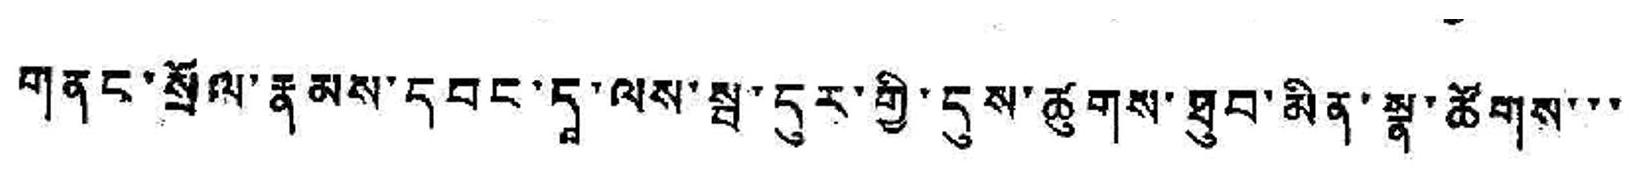གནང་སྲོལ་རྣམས་དབང་དཱ་ལས་སྦ་དུར་གྱི་དུས་ཚུགས་ཐུབ་མིན་སྣ་ཚོགས་་་
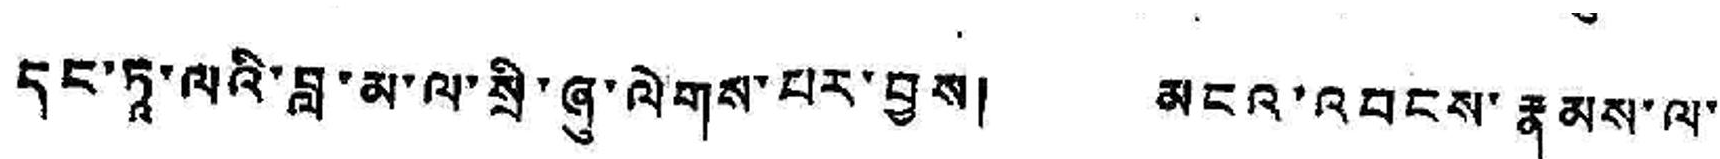དང་ཏཱ་ལའི་བླ་མ་ལ་སྲི་ཞུ་ལེགས་པར་བྱས། མངའ་འབངས་རྣམས་ལ་
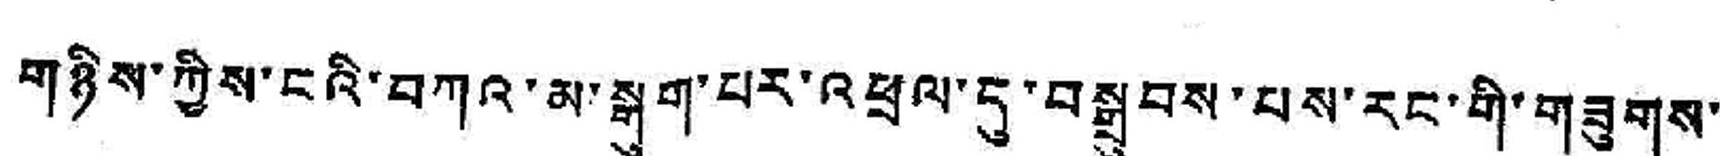གཉིས་ཀྱིས་ངའི་བཀའ་མ་སྒུག་པར་འཕྲལ་དུ་བསྒྲུབས་པས་རང་གི་གཟུགས་
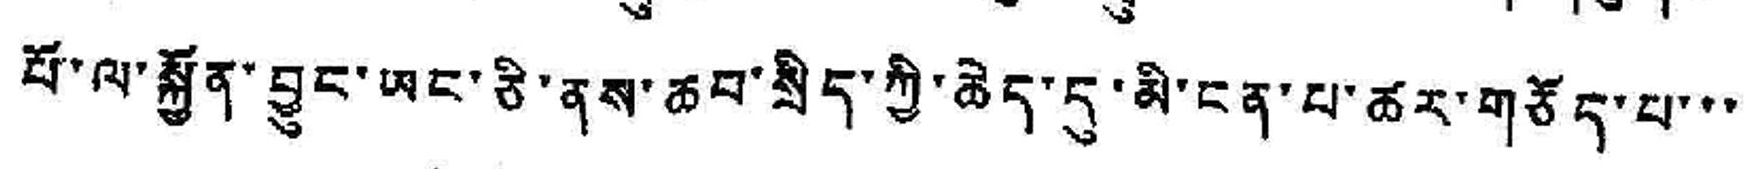པོ་ལ་སྐྱོན་བྱུང་ཡང་ཅི་ནས་ཆབ་སྲིད་ཀྱི་ཆེད་དུ་མི་ངན་པ་ཚར་གཅོད་པ་་་
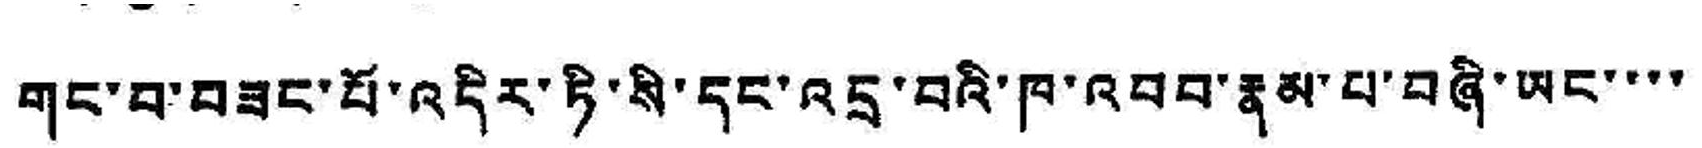གང་བ་བཟང་པོ་འདིར་ཏི་སི་དང་འདྲ་བའི་ཁ་འབབ་རྣམ་པ་བཞི་ཡང་་་་
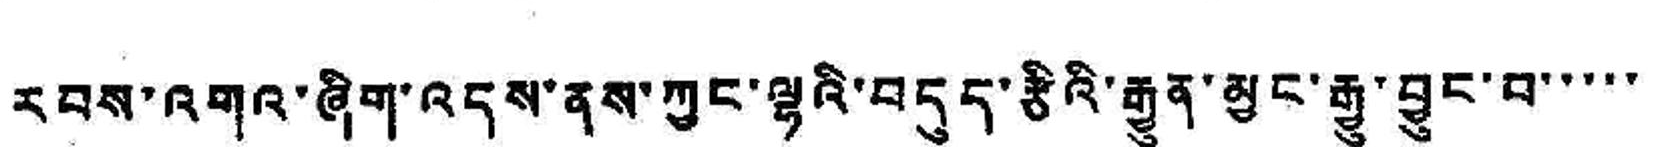རབས་འགའ་ཞིག་འདས་ནས་ཀྱང་ལྷའི་བདུད་རྩིའི་རྒྱུན་མྱང་རྒྱུ་བྱུང་བ་་་་་
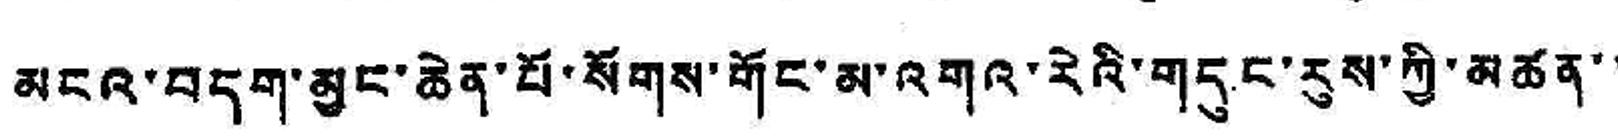མངའ་བདག་མྱང་ཆེན་པོ་སོགས་གོང་མ་འགའ་རེའི་གདུང་རུས་ཀྱི་མཚན་་
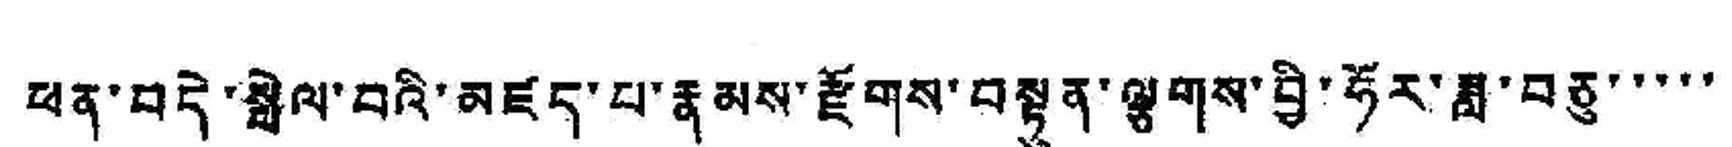ཕན་བདེ་སྤེལ་བའི་མཛད་པ་རྣམས་རྫོགས་བསྟུན་ལྕགས་བྱི་ཧོར་ཟླ་བཅུ་་་་་
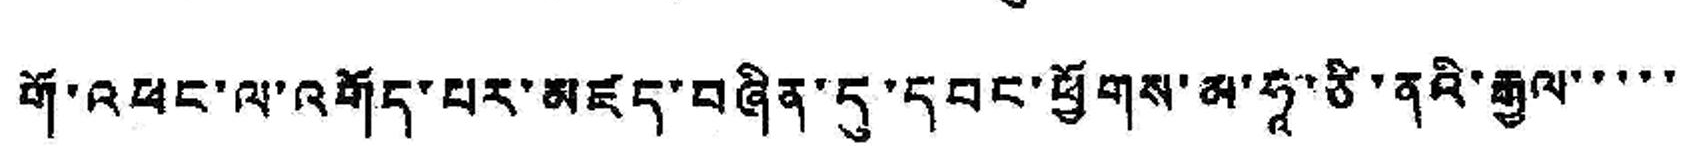གོ་འཕང་ལ་འགོད་པར་མཛད་བཞིན་དུ་དབང་ཕྱོགས་མ་ཧཱ་ཙི་ནའི་རྒྱལ་་་་་
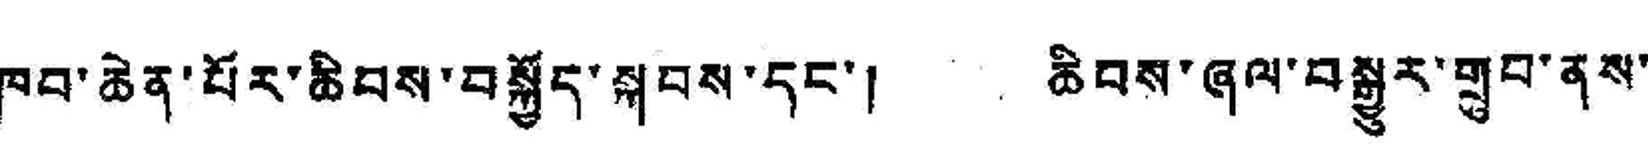ཁབ་ཆེན་པོར་ཆིབས་བསྐྱོད་སྐབས་དང་། ཆིབས་ཞལ་བསྒྱུར་གྲུབ་ནས་
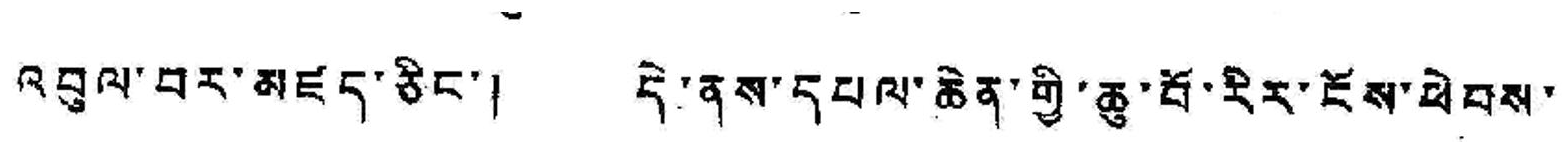འབུལ་བར་མཛད་ཅིང་། དེ་ནས་དཔལ་ཆེན་གྱི་ཆུ་བོ་རིང་ངོས་ཕེབས་
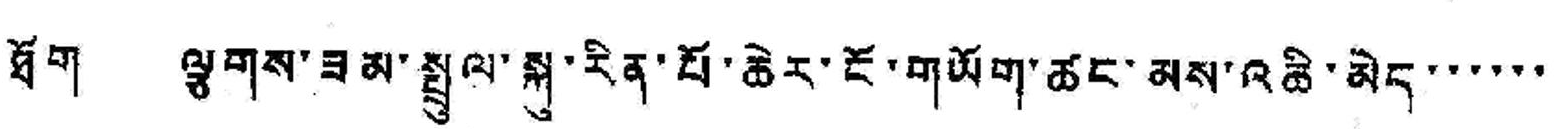ཐོག ལྕགས་ཟམ་སྤྲུལ་སྐུ་རིན་པོ་ཆེར་ངོ་གཡོག་ཚང་མས་འཆི་མེད་་་་་་
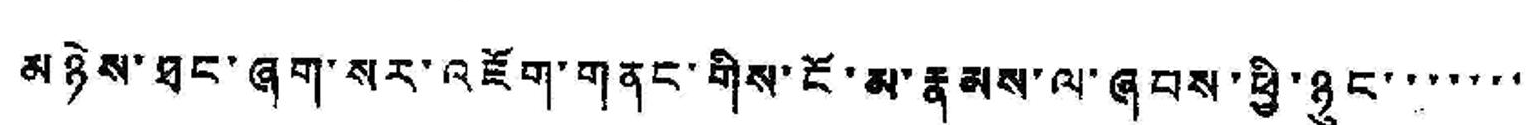མཉེས་ཐང་ཞག་སར་འཇོག་གནང་གིས་ངོ་མ་རྣམས་ལ་ཞབས་ཕྱི་ཉུང་་་་་་་
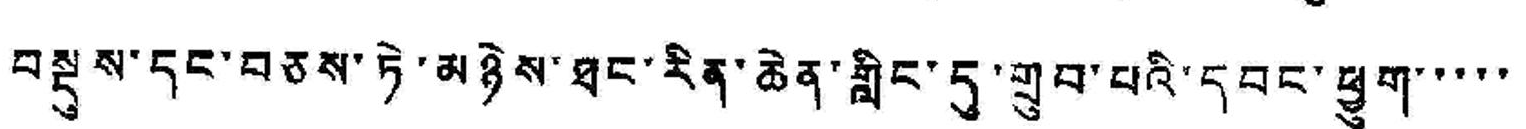བསྡུས་དང་བཅས་ཏེ་མཉེས་ཐང་རིན་ཆེན་གླིང་དུ་གྲུབ་པའི་དབང་ཕྱུག་་་་་
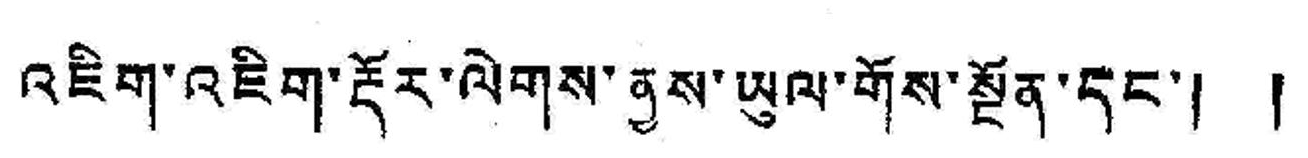འཇིག་འཇིག་རྡོར་ལེགས་ནྱས་ཡུལ་གོས་སྔོན་དང་། །
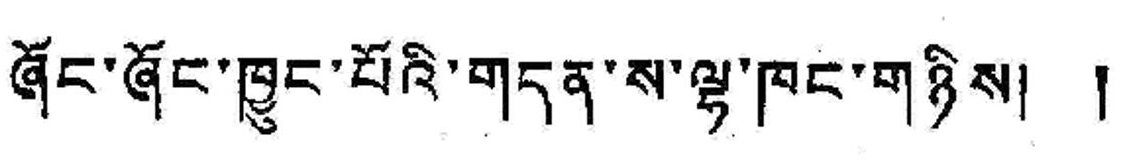ཞོང་ཞོང་ཁྱུང་པོའི་གདན་ས་ལྷ་ཁང་གཉིས། །
